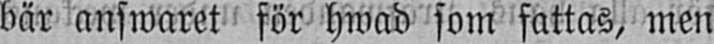bär answaret för hwad som fattas, men
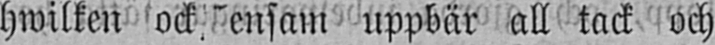hwilken ock ensam uppbär all tack och
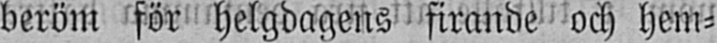beröm för helgdagens firande och hem-
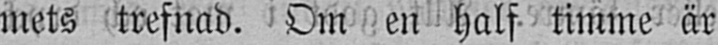mets trefnad. Om en half timme är
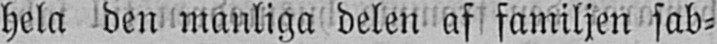hela den manliga delen af familjen sab-
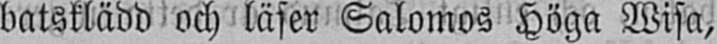batsklädd och läser Salomos Höga Wisa,
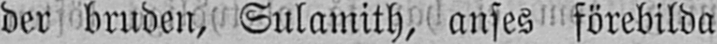der bruden, Sulamith, anses förebilda
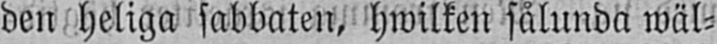den heliga sabbaten, hwilken sålunda wäl-
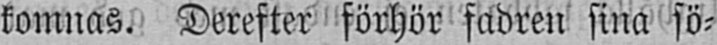komnas. Derefter förhör fadren sina sö-
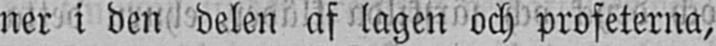ner i den delen af lagen och profeterna,
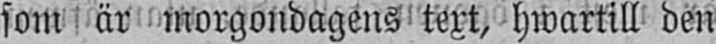som är morgondagens text, hwartill den
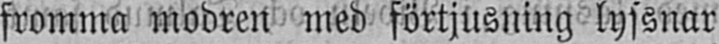fromma modren med förtjusning lyssnar
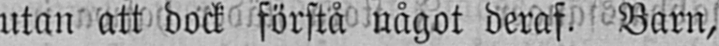utan att dock förstå något deraf. Barn,
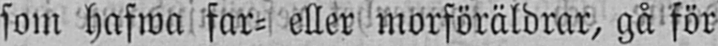som hafwa far- eller morföräldrar, gå för
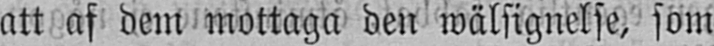att af dem mottaga den wälsignelse, som
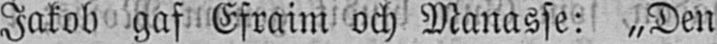Jakob gaf Efraim och Manasse: „Den
